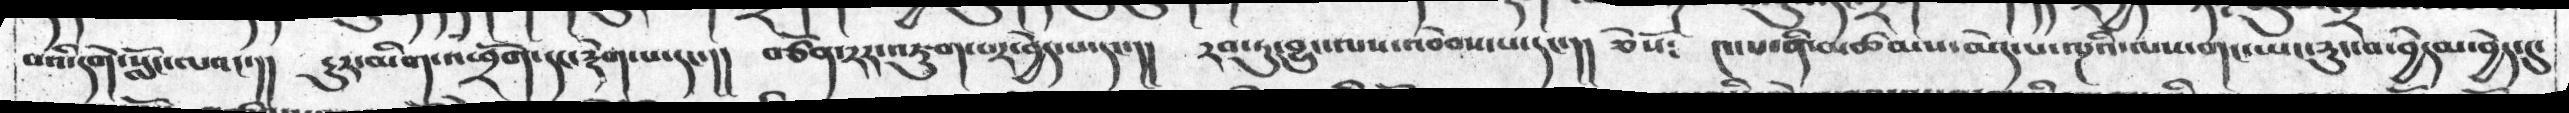བའི་དགེ་སློང་ལའང་།། ངུར་མིག་འཕྲོག་དང་རྡེག་པ་དང་།། བཙོན་རར་འཇུག་པར་བྱེད་པ་དང་།། རབ་ཏུ་བྱུང་ལས་འབེབས་པ་དང་།། ཅེསོ༴ ༤་པ་ནི་མཚམས་མེད་པ་ལྔའི་ལས་གང་ཡང་རུང་བ་བྱེདམ་བྱེད་དུ་
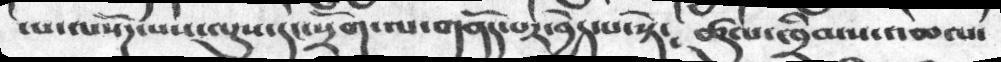་པ་ལསོཌ་པས་ལུས་དང་སྲོག་ལ་གནོད་པར་བྱེད་པ་སྟེ༴ ཚུལ་ཁྲིམས་འཆལ་
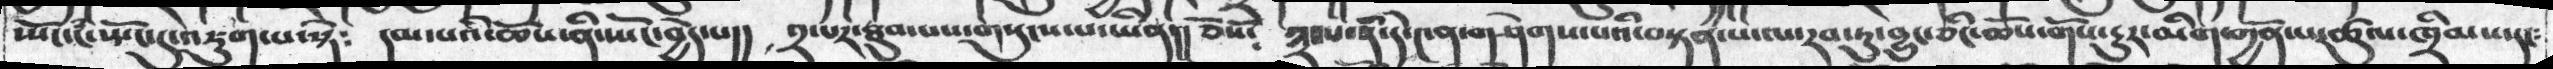སྤོང་ངཾ་སྤོང་དུ་འཇུག་པ་སྟེ༴ དམ་པའི་ཆོས་ནི་སྤོང་བྱེད་པ།། ༢་པར་ཐུབ་པས་གསུངས་པ་ཡིན།། ཅེསོ༴ ༣་པ་ནི་དེ་༤ན་གཤེགས་པའི་བསྟན་པ་ལ་རབ་ཏུ་བྱུང་ཅིང་ཆོས་གོས་ངུར་མིག་གྱོན་པ་ཚུལ་ཁྲིམས་དང༴
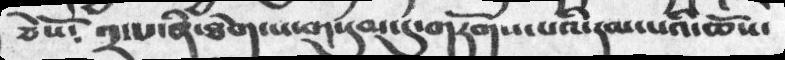ཅེསོ༴ ༢་པ་ནི་ཐེག་པ་གསུམ་དུ་གཏོགས་པའི་དམ་པའི་ཆོས་
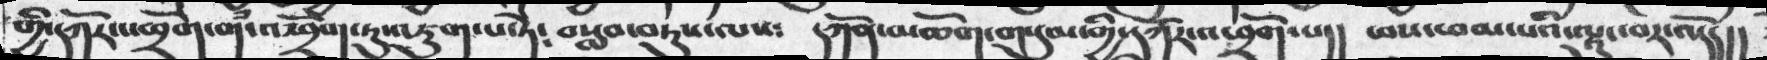གྱི་དཀོར་འཕྲོག་གཾ་འཕྲོག་ཏུ་འཇུག་པ་ཏེ༴ བསླབ་བཏུས་ལས༴ དཀོན་མཆོག་གསུམ་གྱི་དཀོར་འཕྲོག་པ།། ཕས་ཕམ་པའི་ལྟུང་བར་འདོད།།
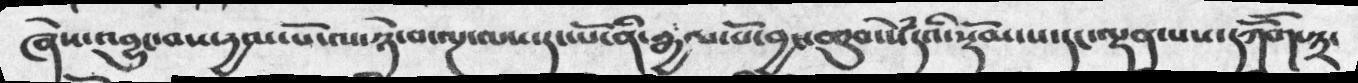ཞེས་འབྱུང་བས་དྱལ་པོ་ལ་ཉེ་བ་ལྔ་ལས་དང་པོ་ནི་རྒྱལ་པོ་བྱང་ཆུབ་སེཾདའི་སྡོམ་པ་དང་ལྡན་པས་དཀོོག་༣་
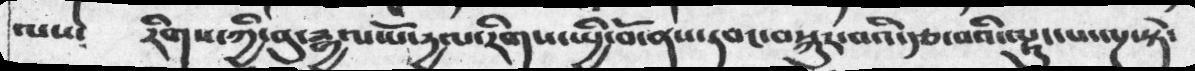ལས༴ རིགས་ཀྱི་བུ་རྒྱལ་པོ་དྱལ་རིགས་སྤྱི་བོ་ནས་དབང་བསྐུར་བའི་རྩ་བའི་ལྟུང་པ་ལྔ་སྟེ་
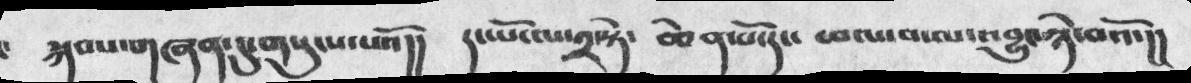སྐབས་གཞན་དུ་གསུངས་པའོ།། དང་པོ་ལ་༢་སྟེ་ ཆེན་པོ་དང་ ཕལ་བ་ལ་འབྱུང་ཉེ་བའོ་།།
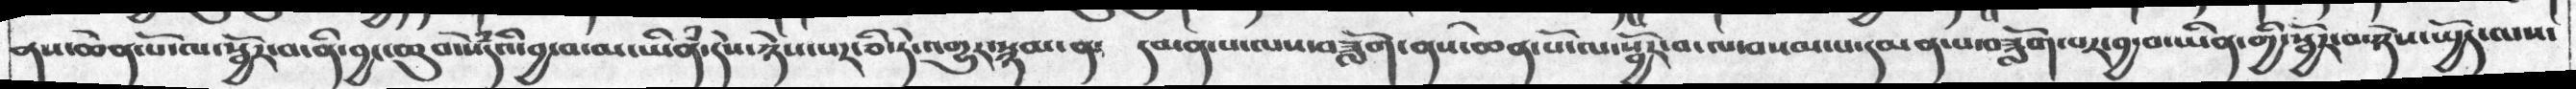ནས་ཆེན་པོ་ལ་སྦྱོར་བ་ནི་བྱང་ཆུབ་སེཾདའི་བྱ་བ་མ་ཡིནཾ་དེས་ཉེས་པར་ཅི་ཏེ་འགྱུར་སྙམ་ན༴ དམན་པ་ལས་བཟློག་ནས་ཆེན་པོ་ལ་སྦྱོར་བ་ལ་བསམ་པ་དམན་པ་བཟློག་པར་བྱ་བ་ཡིན་གྱི་སྦྱོར་བ་ཉེས་སྤྱོད་ལས་
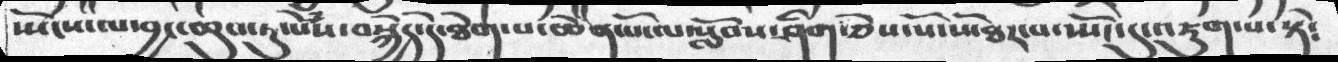ཡོངས་ལ་བྱང་ཆུབ་སེཾས་བསྐྱེད་དེ་ཐེག་པ་ཆེན་པོ་ལ་སློབས་ཤིག་ཅེས་སོ་སོ་ཐར་བ་ཡོང་དུ་འཇུག་པ་སྟེ༴
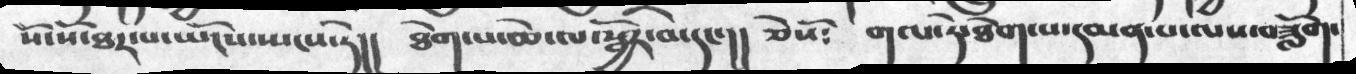སོ་སོ་ཐར་པ་ཡོངས་སྤངས་ཏེ།། ཐེག་པ་ཆེ་ལ་སྦྱོར་བ་དང་།། ཅེསོ༴ གལ་ཏེ་ཐེག་པ་དམན་པ་ལས་བཟློག་
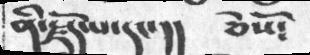ནི་རྗོད་པ་དང་།། ཅེསོ༴
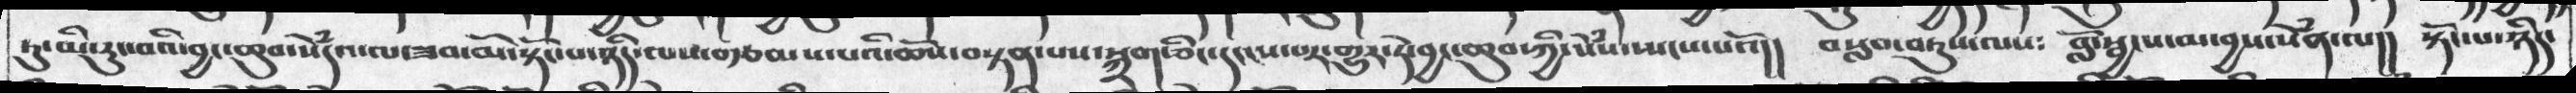ཏུ་མི་རུང་བའི་བྱང་ཆུབ་སེཾདའ་ལ་ཟབ་མོ་སྟོང་པ་ཉིད་ལས་བརྩམས་པའི་ཆོས་བསྟན་པས་སྐྲག་ཅིང་དངངས་པར་གྱུར་ཏེ་བྱང་ཆུབ་སེཾས་སྤངས་པའོ།། བསླབ་བཏུས་ལས༴ བློ་སྦྱངས་མ་བྱས་སེཾན་ལ།། སྟོང་པ་ཉིད་
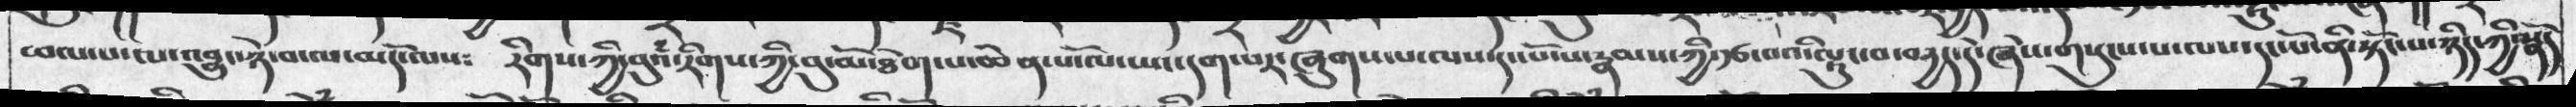ཕམ་པ་ངས་འབྱུང་ཉེ་བ་ལ་མདོ་ལས༴  རིགས་ཀྱི་བུའཾ་རིགས་ཀྱི་བུ་མོ་ཐེག་པ་ཆེན་པོ་ལ་ཡང་དག་པར་ཞུགས་པ་ལས་དདང་པོ་པ་རྣམས་ཀྱི་རྩ་བའི་ལྷུང་བ་བརྱད་དེ་ཞེས་གསུངས་པ་ལས་དང་པོ་ནི་སྟོང་པ་ཉིད་ཀྱི་སྣོད་
